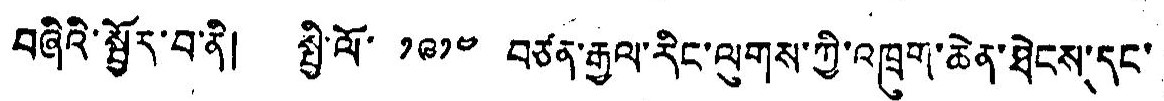བཞིའི་སྦྱོར་བ་ནི། སྤྱི་ལོ་ ༡༩༡༤ བཙན་རྒྱལ་རིང་ལུགས་ཀྱི་འཁྲུག་ཆེན་ཐེངས་དང་
